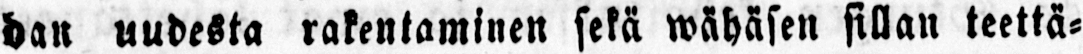dan uudesta rakentaminen sekä wähäsen sillan teettä-
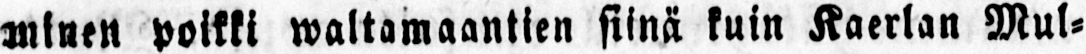minen poikki waltamaantien siinä kuin Kaerlan Mul-
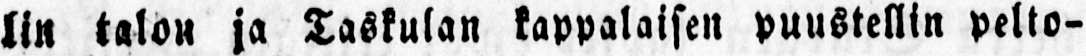lin talon ja Taskulan kappalaisen puustellin pelto-
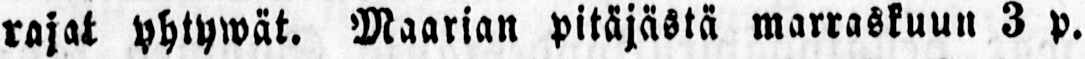rajat yhtywät. Maarian pitäjästä marraskuun 3 p.
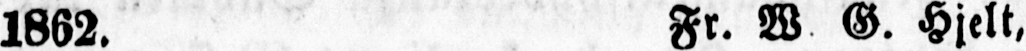1862. Fr. W. G. Hjelt,
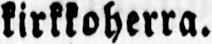kirkkoherra.
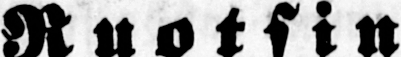Ruotsin
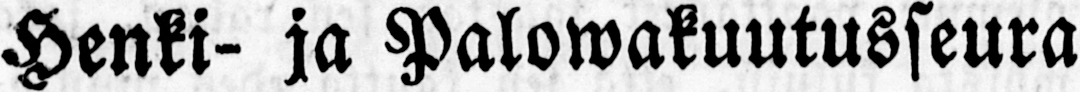Henki- ja Palowakuutusseura
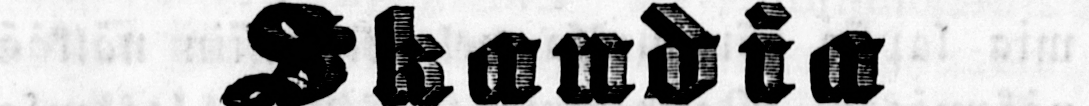Skandia
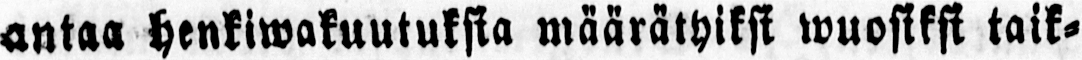antaa henkiwakuutuksia määrätyiksi wuosiksi taik-
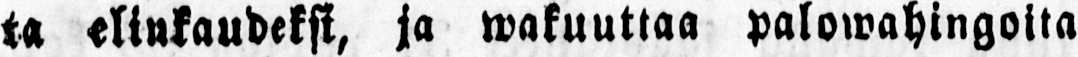ta elinkaudeksi, ja wakuuttaa palowahingoita
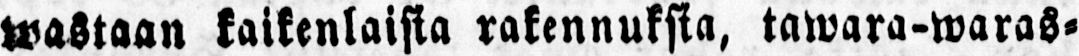wastaan kaikenlaisia rakennuksia, tawara-waras-
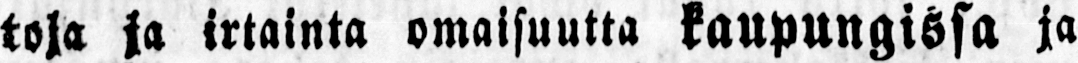toja ja irtainta omaisuutta kaupungissa ja
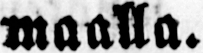maalla.
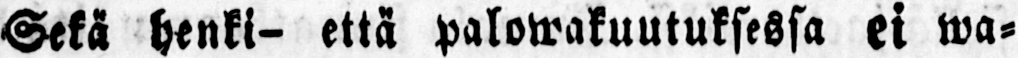Sekä henki- että palowakuutuksessa ei wa-
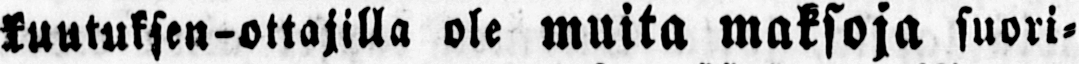kuutuksen-ottajilla ole muita maksoja suori-
